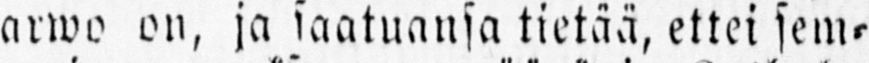arwo on, ja saatuansa tietää, ettei sem-
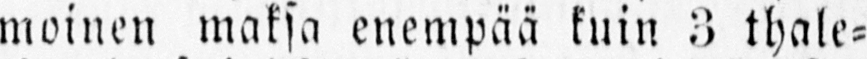moinen maksa enempää kuin 3 thale-
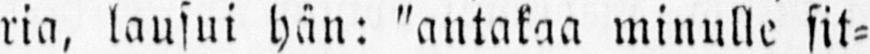ria, lausui hän: "antakaa minulle sit-
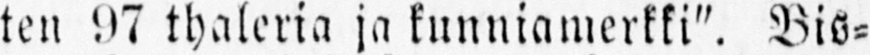ten 97 thaleria ja kunniamerkki". Bis-
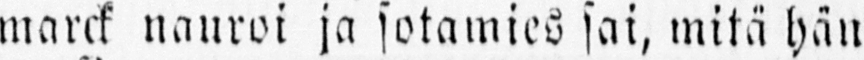marck nauroi ja sotamies sai, mitä hän
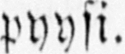pyysi.
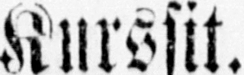Kurssit.
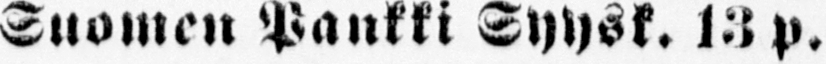Suomen Pankki Syysk. 13 p.
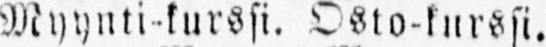Myynti-kurssi. Osto-kurssi.
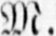M.
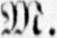M.
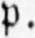p.
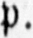p.
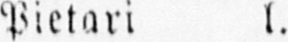Pietari l. a. 257: — 253: — 100:lta r.
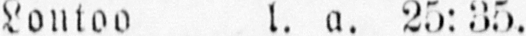Lontoo l. a. 25: 35. — —
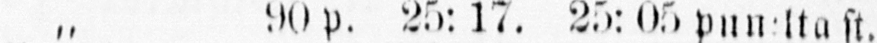„ 90 p. 25: 17. 25: 05 pun:lta st.
